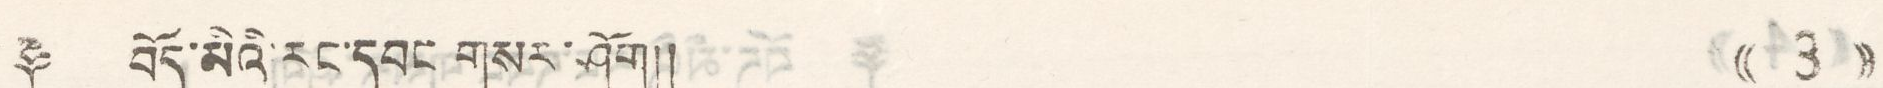༈ བོད་མའི་རང་དབང གསར་ཤོག༎ (( 3 ))
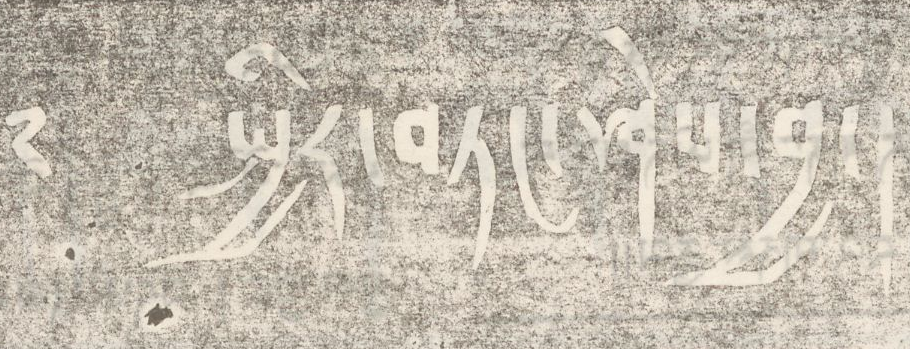༄ སྤྱིར་བཏང་ཤེས་བྱ།
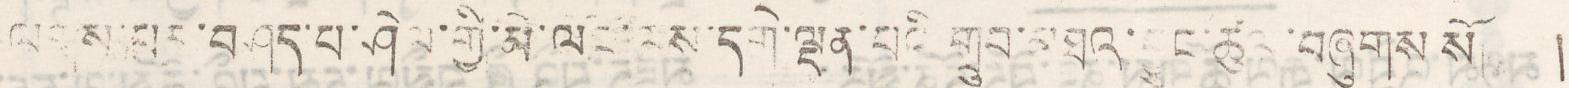ལདས་བར་བཤད་པ་ཤེལ་གྱི་མེ་ལོང་ལས་དགེ་ལྡན་པའི གྲུབ་མཐའ་བྱུང་ཚུལ་བཞུགས་སོ། །
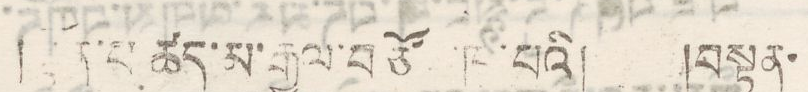།སྟོན་པ ཚད་མ་རྒྱལ་བཙོང་ཁ་པའི། །བསྟན་
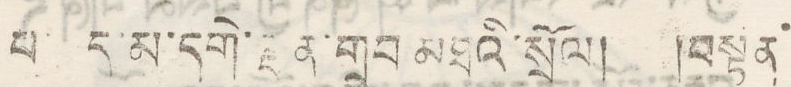པ་ཚད་མ་དགེ་ལྡན་གྲུབ མཐའི་སྲོལ། །བསྟན་
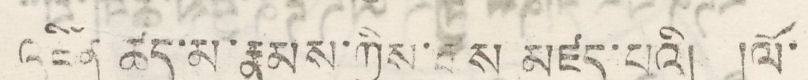འཛིན ཚད་མ་རྣམས་ཀྱིས་རྒྱས མཛད་པའི། །ལོ་
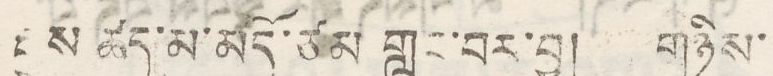རྒྱུས་ཚད་མ་མདོ་ཙམ་གླང་བར་བྱ། གཉིས་
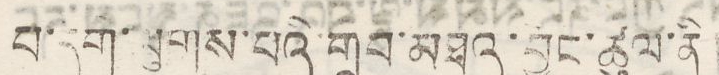བ་དག་ཐུགས་པའི་གྲུབ་མཐའ་བྱུང་ཚུལ་ནི
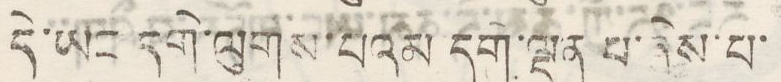དེ་ཡང དགེ་ལུགས་པའམ་དགེ་ལྡན་པ་ཞེས་པ་
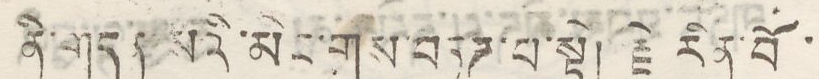ནི་གདན སའི་མིང་གས་བཏཌ་པ་སྟེ། རྗེ རིན་པོ་
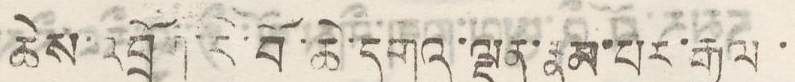ཆེས་འབྲོག་རེ་བོ་ཆེ་དགའ་ལྡན་རྣམ་པར་རྒྱལ་
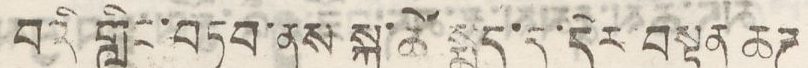བའི གླིང་བཏབ་ནས སྐུ་ཚེ་སྨད་དུ་དེར་བསྟན ཆཌ་
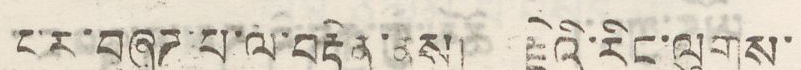པར་བཞུཌ་པ་ལ་བརྟེན་ནས། རྗེའི་རིང་ལུགས་
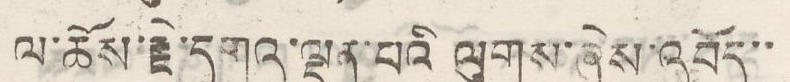ལ་ཆོས་རྗེ་དགའ་ལྡན་པའི ལུགས་ཞེས་འབོད་་
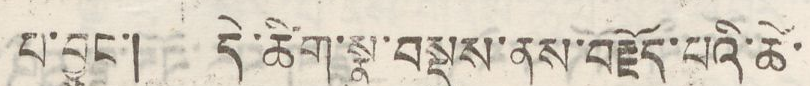པ་བྱུང་། དེ་ཚིག་སྣ་བསྡུས་ནས་བརྗོད་པའི་ཚེ་
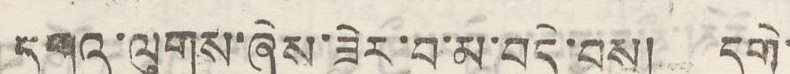དགའ་ལུགས་ཞེས་ཟེར་པ་མ་བདེ་བས། དགེ་
